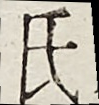氏
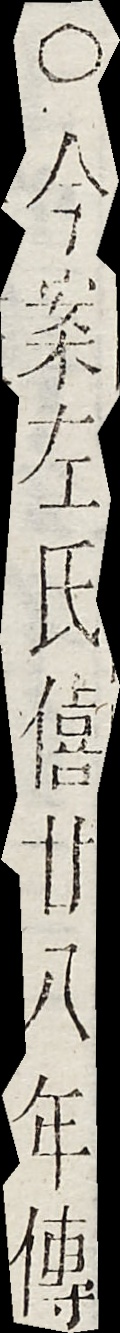○今案左氏僖廿八年傳
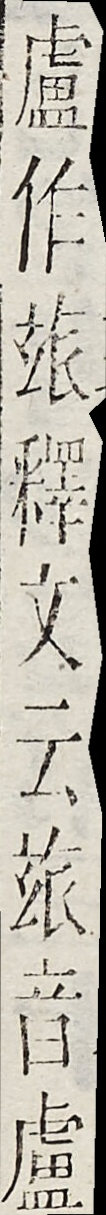盧作玈釋文云玈音盧
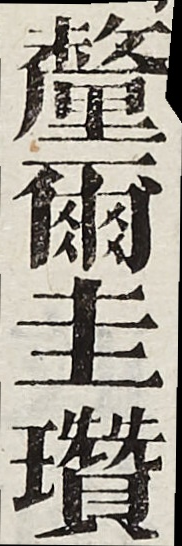釐爾圭瓚
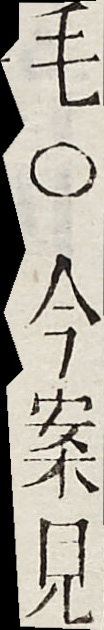毛○今案見
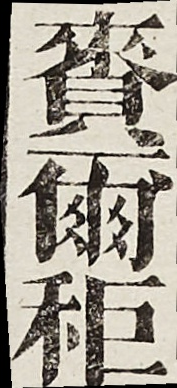賚爾秬
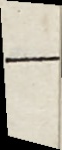一
